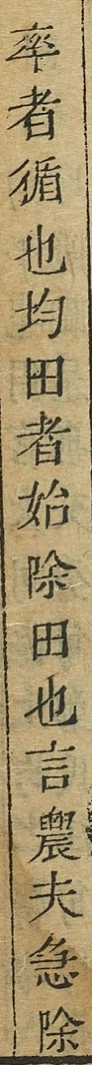率者循也均田者始除田也言農夫急除
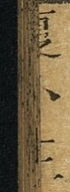夏小正
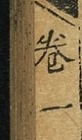卷一
